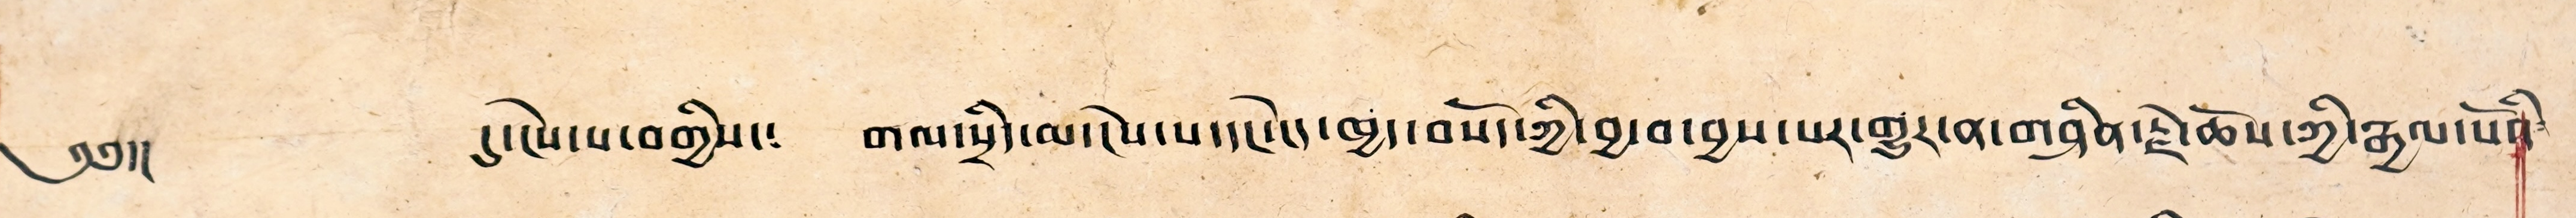༄༅།། དུ་ངེས་པ་བགྱིས་༴ གལ་སྲིད་མ་ངེས་པ་དང་ངེད་ཁྱད་བསོད་ཀྱི་བྱ་བ་བྱས་པར་གྱུར་ན་གཤིན་རྗེ་ཆོས་ཀྱི་རྒྱལ་པོའི་
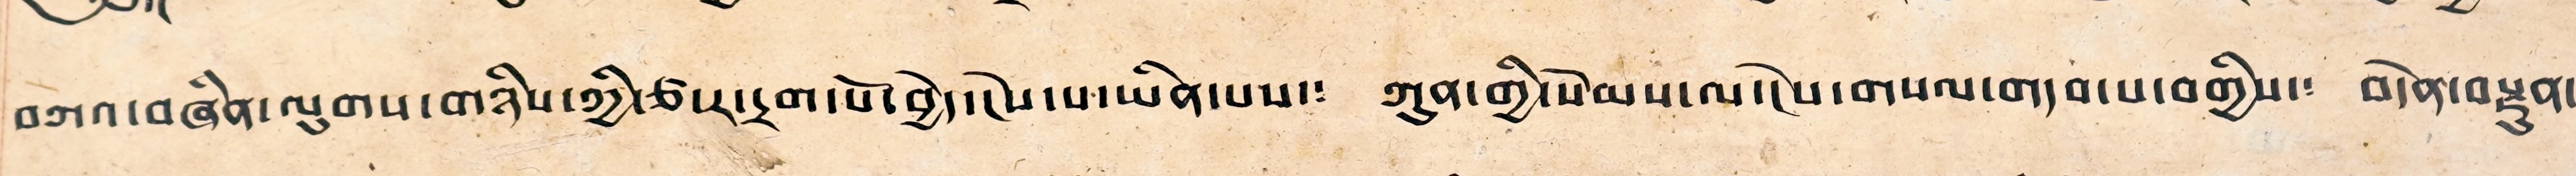བཀའ་བཞིན་ལུགས་གཉིས་ཀྱི་ཙར་དྲག་པོ་བྱེད་ངེས་པ་ཡིན་པས་༴ ཀུན་གྱི་སེམས་ལ་ངེས་གསལ་གདབ་པ་བགྱིས་༴ བདེན་བརྫུན་
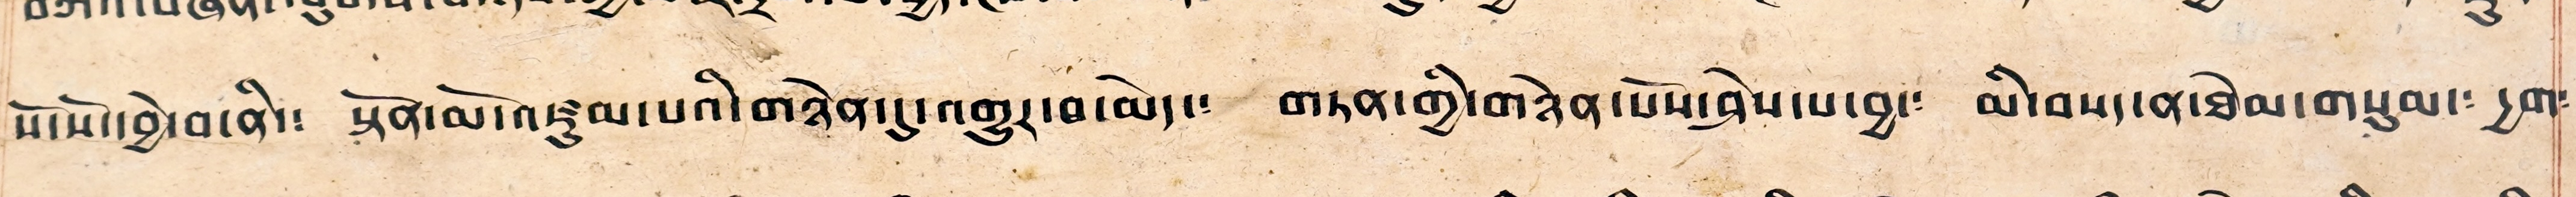སོ་སོ་བྱེ་བ་ནི་༴ སྟོན་མོ་འཛུམ་པའི་གཉེན་དུ་འགྱུར་བ་མེད། གཏན་གྱི་གཉེན་པོས་ཤེས་པ་བྱ་༴ མི་བསད་ན་ཐེམ་གསུམ་༴ དྱག༴
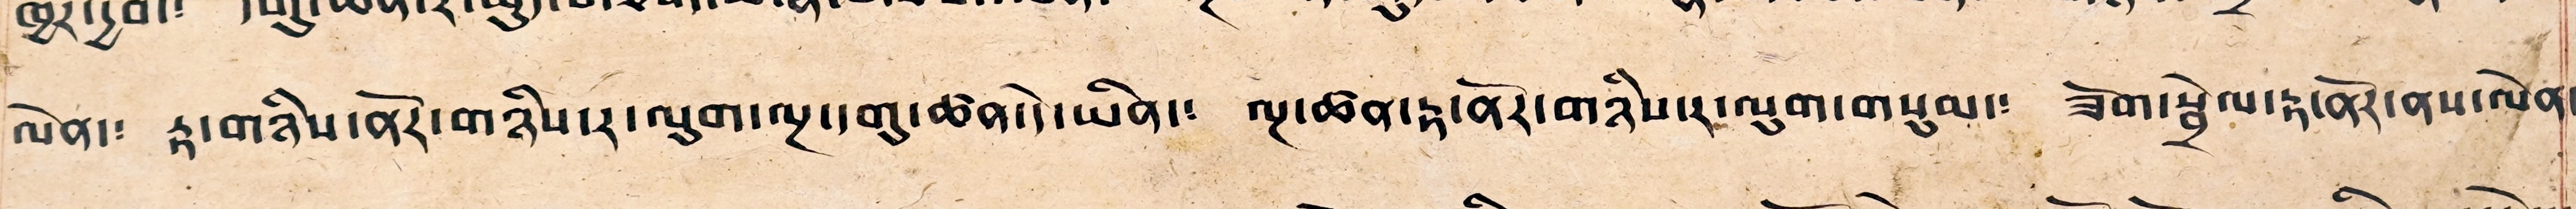ལེན་༴ རྟ་གཉིས་ནོར་གཉིས་ར་ལུག་ལྔ་དགུ་ཚན་དེ་ཡིན་༴ ལྔ་ཚན་རྟ་ནོར་གཉིས་ར་ལུག་གསུམ་༴ ཟོག་སྦྲེལ་རྟ་ནོར་ནས་ལེན་
